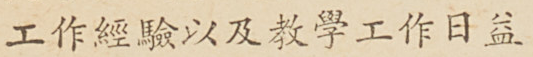工作經驗以及教學工作日益
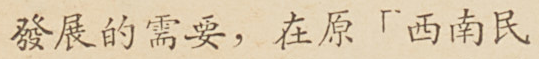發展的需要，在院「西南民
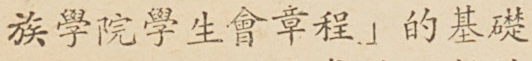族學院學生會章程」的基礎
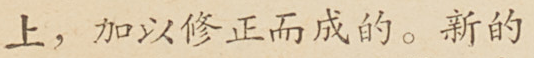上，加以修正而成的。新的
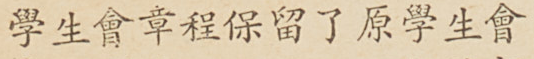學生會章程保留了原學生會
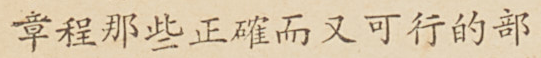章程那些正確而又可行的部
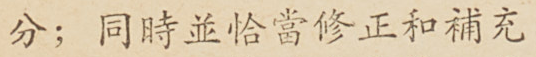分；同時並恰當修正和補充
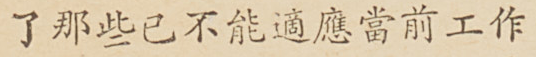了那些已不能適應當前工作
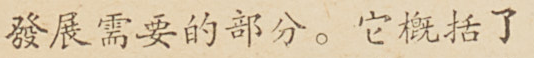發展需要的部分。它概括了
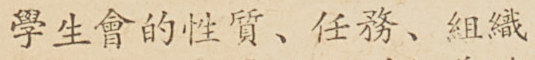學生會的性質、任務、組織
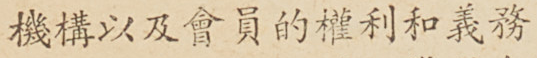機構以及會員的權利和義務
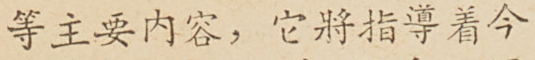等主要內容，它將指導着今
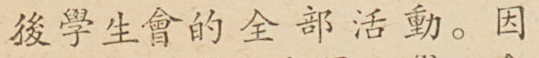後學生會的全部活動。因
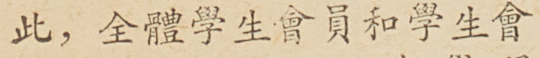此，全體學生會員和學生會
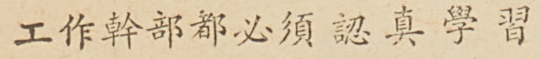工作幹部都必須認真學習
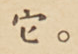它。
